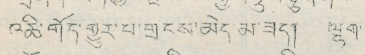འཆི་གོད་གྱུར་པ་གྲངས་མེད་མ་ཟད། ལྷག་
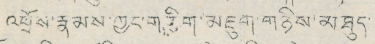འཕྲོས་རྣམས་ཀྱང་གཅིག་མཇུག་གཉིས་མཐུད་
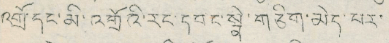འགྲོ་དང་མི་འགྲོའི་རང་དབང་སྣེ་གཅིག་མེད་པར་
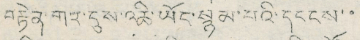བརྟེན་གར་དུས་འཆི་ཡོང་སྙམ་པའི་དངངས་་
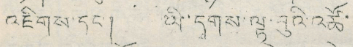འཇིགས་དང་། ཡི་དྭགས་ལྟ་བུའི་འཚོ་
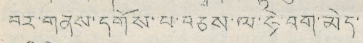བར་གནས་དགོས་པ་བཅས་ལ་ཧེ་བག་མེད་
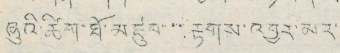ཞུའི་ཚིག་ཐོ་མཛུབ་བརྟགས་འབྱར་མར་
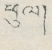ཕུལ།
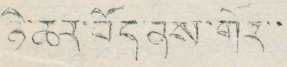ཉེ་ཆར་བོད་ནས་གོར་་
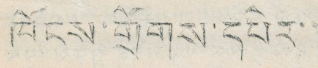ཁོངས་གྲོགས་དཔེར་་
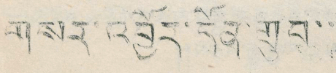གསར་འབྱོར་དོན་གྲུབ་་
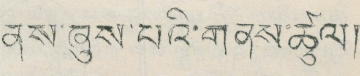ནས་ཞུས་པའི་གནས་ཚུལ།
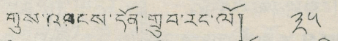གུས་འབངས་དོན་གྲུབ་རང་ལོ། ༣༥
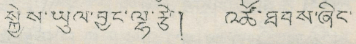སྐྱེས་ཡུལ་བྱང་ལྷ་རྩེ། འཚོ་ཐབས་ཞིང་
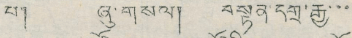པ། ཞུ་གསལ། བསྟན་དགྲ་རྒྱ་་་
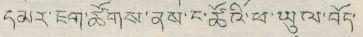དམར་ཇག་ཚོགས་ནས་ང་ཚོའི་ཕ་ཡུལ་བོད་
